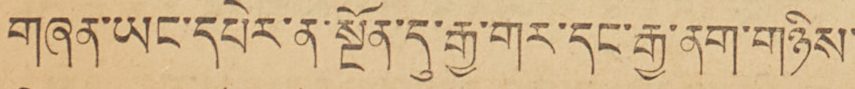གཞན་ཡང་དཔེར་ན་སྔོན་དུ་རྒྱ་གར་དང་རྒྱ་ནག་གཉིས་
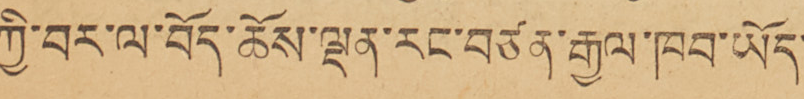ཀྱི་བར་ལ་བོད་ཆོས་ལྡན་རང་བཙན་རྒྱལ་ཁབ་ཡོད་
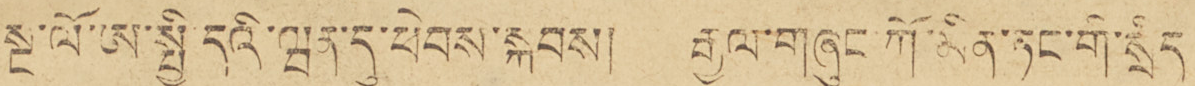སྔ་ལོ་ཨ་སྤྱི་དའི་ཝན་དུ་ཕེབས་སྐབས། རྒྱལ་གཞུང་ཀོ་མིན་ཏང་གི་སྲིད་
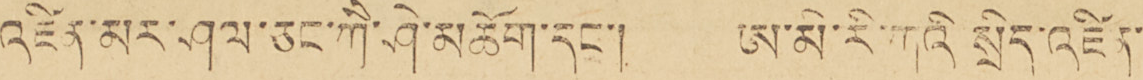འཛིན་མར་ཤལ་ཅང་ཀཻ་ཤེ་མཆོག་དང་། ཨ་མི་རི་ཀའི་སྲིད་འཛིན་
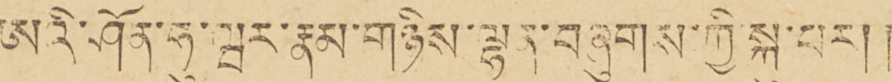ཨའི་ཤོན་ཧུ་ཝར་རྣམ་གཉིས་ལྷན་བཞུགས་ཀྱི་སྐུ་བར།།
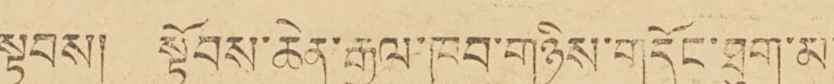སྟབས། སྟོབས་ཆེན་རྒྱལ་ཁབ་གཉིས་གདོང་ཐུག་མ་
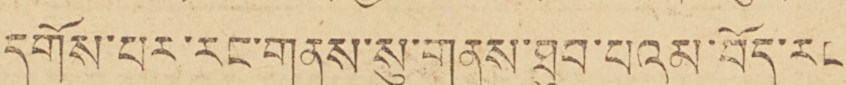དགོས་པར་རང་གནས་སུ་གནས་ཐུབ་པའམ་བོད་རང་
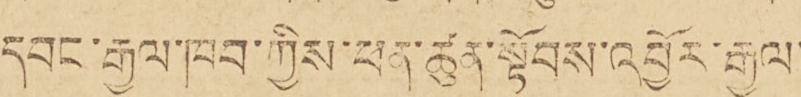དབང་རྒྱལ་ཁབ་གྱིས་ཕན་ཚུན་སྟོབས་འབྱོར་རྒྱལ་
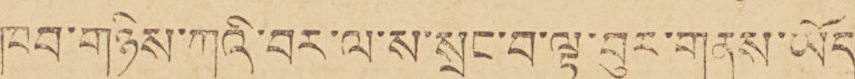ཁབ་གཉིས་ཀའི་བར་ལ་ས་སྲུང་བ་ལྟ་བུར་གནས་ཡོད་
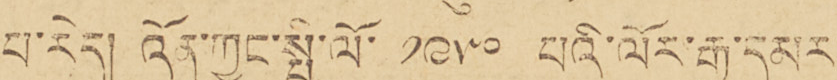པ་རེད། འོན་ཀྱང་སྤྱི་ལོ་ ༡༩༥༠ པའོ་ལོར་རྒྱ་དམར་
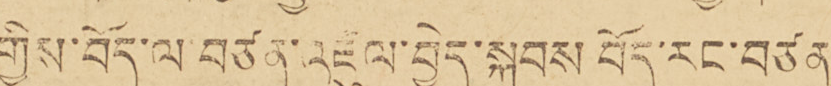གྱིས་བོད་ལ་བཙན་འཛུལ་བྱེད་སྐབས་བོད་རང་བཙན་
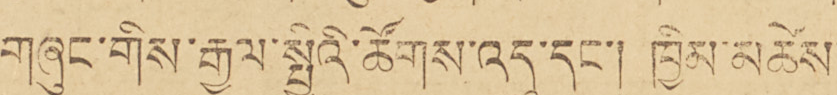གཞུང་གིས་རྒྱལ་སྤྱིའི་ཚོགས་འདུ་དང་། ཁྱིམ་མཚེས་
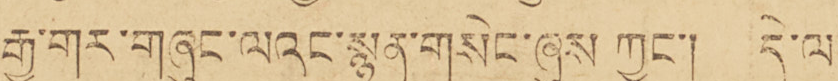རྒྱ་གར་གཞུང་ལའང་སྙན་གསེང་ཞུས་ཀྱང་། དེ་ལ་
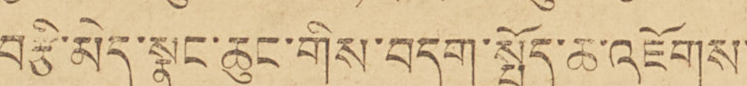བརྩི་མེད་སྣང་ཆུང་གིས་བདག་སྤྲོད་ཆ་འཇོགས་
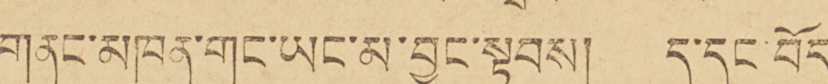གནང་མཁན་གང་ཡང་མ་བྱུང་སྟབས། ད་དུང་བོད་
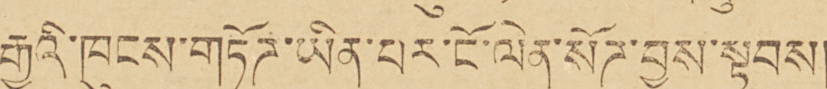རྒྱའི་ཁུངས་གཏོཊ་ཡིན་པར་ངོ་ལེན་སོཊ་བྱས་སྟབས།
